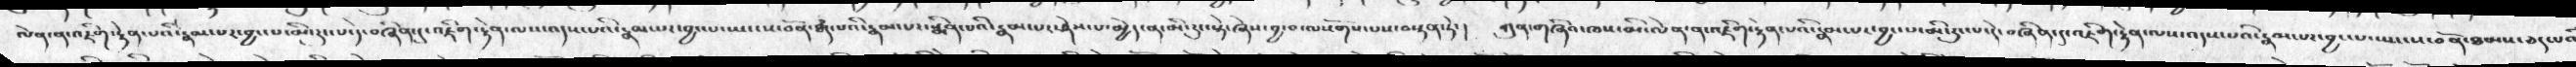ལེན་ན་འཇིག་རྟེན་པའི་རྣམ་པར་བྱང་པ་མི་རུང་པ་དེ་བཞིན་དུ་འཇིག་རྟེན་ལས་འདས་པའི་རྣམ་པར་བྱང་པ་ཡང་ས་བོན་ཐཾད་པའི་རྣམ་པར་སྨིན་པའི་རྣམ་པར་ཤེས་པ་མྱེད་ན་མི་རུང་སྟེ་ཞེས་བྱ་བ་ལསོགས་པས་བསྟན་ཏེ་།    ཀུན་གཞིའ་ཁས་མི་ལེན་ན་འཇིག་རྟེན་པའི་རྣམ་པར་བྱང་པ་མི་རུང་དེ་བཞིན་དུ་འཇིག་རྟེན་ལས་འདས་པའི་རྣམ་པར་བྱང་པ་ཡང་ས་བོན་ཐམས་ཅད་པའི
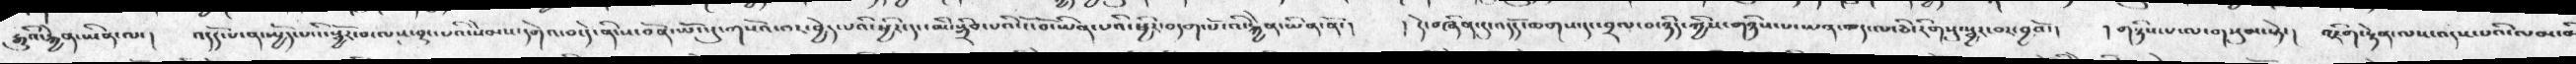རྒྱུའི་རྐྱེན་ཡིན་ལ་།   འདོད་པ་ན་ཡྱོད་པ་འི་སྦྱོར་བ་ལས་བྱུང་པའི་སེམས་དགེའ་བ་དེ་ནི་ས་བོན་ཡོངསུ་གསོའ་བར་བྱེད་པའི་ཕྱིར་དང་མི་སྒྲིབ་པའི་ངོ་བོ་ཡིན་པའི་ཕྱིར་བདག་པོ་འི་རྐྱེན་ཡིན་ནོ་།   ། དེ་བཞིན་དུ་འདོད་ཆགས་དང་བྲལ་བ་ཉིད་ཀྱིས་གཉིས་པ་ཡན་ཆད་ལ་ཅི་རིགསུ་སྦྱར་བར་བྱའོ་།   །  གཉིས་པ་ལ་གསུམ་སྟེ་།  འཇིག་རྟེན་ལས་འདས་པའི་ལམ་
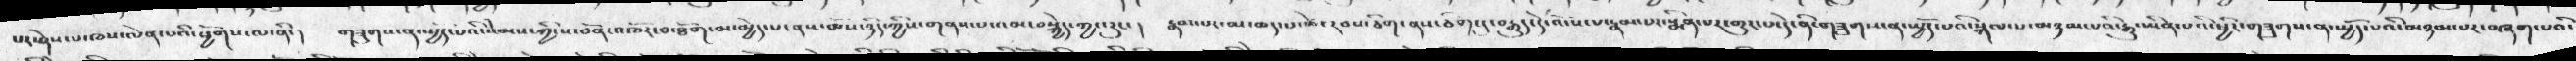པར་ཤེས་པ་ཁས་ལེན་པའི་ཕྱོགས་ལ་ནི་།   གཟུགས་ན་སྤྱོད་པའི་སེམས་གྱི་ས་བོན་འཁོར་བ་ཐོག་མ་མྱེད་པ་ནས་ཆོས་ཉིད་ཀྱིས་གནས་པས་མ་བསྐྱེད་གྱང་རུང་།  རྣམ་པར་མ་ཆད་པ་ཚེ་རབས་ཅིག་ནས་ཅིག་དུ་བརྒྱུད་དེ་འོངས་པ་རྣམ་པར་སྨིན་པར་གྱུར་པ་དེ་ནི་གཟུགས་ན་ཡྱོད་པའི་སྐལ་པ་མཉམ་པའི་རྒྱུ་ཡིན་པའི་ཕྱིར་གཟུགས་ན་ཡྱོད་པའི་མཉམ་པར་བཞག་པའི་
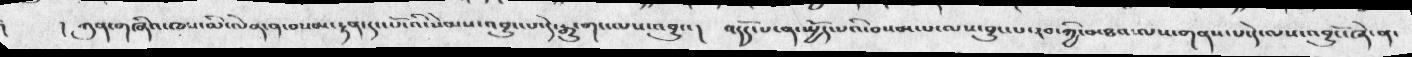།     ། ཀུན་གཞིའ་ཁས་མི་ལེན་ན་བསམ་་རྟན་དང་པོ་འི་སེམས་འབྱུང་པ་དེ་རྒྱུ་གང་ལས་འབྱུང་།  འདོད་པ་ན་ཡྱོད་པའི་བསམ་པ་ལས་བྱུང་པ་རབ་ཀྱི་མཐའ་ལས་གནས་པ་དེ་ལས་འབྱུངོ་ཞེ་ན་
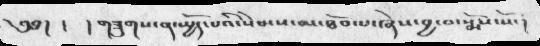༄༅།     །    ། གཟུགས་ན་ཡྱོད་པའི་སེམས་མ་ཐོབ་པ་ཞེས་བྱ་བ་སྨོས་སོ་།
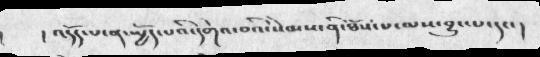།     འདོད་པ་ན་ཡྱོད་པའི་དགེའ་བའི་སེམས་ནི་ཐོས་པ་ལས་བྱུང་པ་དང་ །
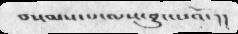བསམས་པ་ལས་བྱུང་པའོ་ །།
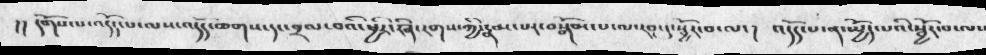།།  དགོས་པ་འདོད་པ་ལས་འདོད་ཆགས་དང་བྲལ་བའི་ཕྱིར་ཞི་རགས་ཀྱི་རྣམ་པར་བསྒོམ་པ་ལ་རབ་དུ་སྦྱོར་བ་ལ་།   འདོད་པ་ན་ཡྱོད་པའི་སྦྱོར་བ་ལས
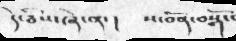དེ་ཅིས་ཞེ་ན་ །   ས་བོན་བསྒོ་བ
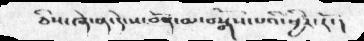ཅིས་ཞེ་ན་དེ་ས་བོན་མ་བསྒོས་པའི་ཕྱིར་རོ་།
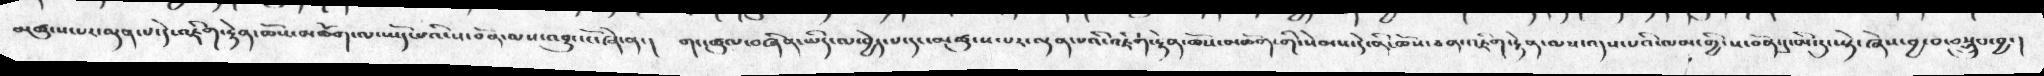མཚུངས་པར་ལྡན་པ་དེ་འཇིག་རྟེན་ཆོས་མཆོག་ལ་ཡོད་པའི་ས་བོན་ལས་འབྱུང་ངོ་ཞེ་ན་།   གང་ཚུལ་བཞིན་ཡིད་ལ་བྱེད་པ་དང་མཚུངས་པར་ལྡན་པའི་འཇིག་རྟེན་ཆོས་མཆོག་གི་སེམས་དེ་ནི་ཆོས་ཅན་འཇིག་རྟེན་ལས་འདས་པའི་ལམ་གྱི་ས་བོན་དུ་མི་རུང་སྟེ་ཞེས་བྱ་བ་བསྡྲུབ་བྱ་།
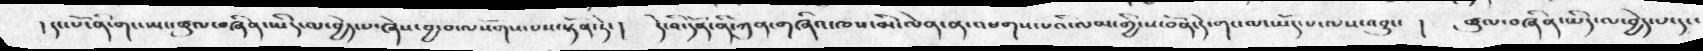། དང་པོ་ནི་གང་ཡང་ཚུལ་བཞིན་ཡིད་ལ་བྱེད་པ་ཞེས་བྱ་བ་ལསོགས་པས་སྟོན་ཏེ་།   དེ་འི་དོན་ནི་ཀུན་གཞིའ་ཁས་མི་ལེན་ན་འཕགས་པའི་ལམ་གྱི་ས་བོན་དེ་གང་ལ་ཡོད་པ་ལས་འབྱུང་ །  ཚུལ་བཞིན་ཡིད་པ་བྱེད་པ་དང་
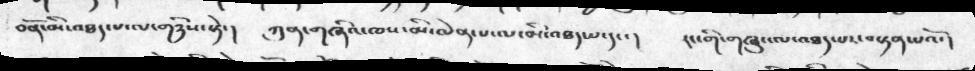བོན་མི་འཐད་པ་ལ་གཉིས་སྟེ་།  ཀུན་གཞིའ་ཁས་མི་ལེན་པ་ལ་མི་འཐད་པ་དང་།   རང་གི་གཞུང་ལ་འཐད་པར་བསྟན་པའོ་།
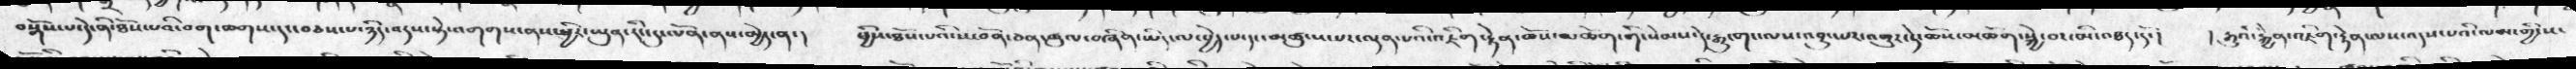བསྒོམ་པ་དེ་ནི་ཐོས་པའི་བག་ཆགས་དང་བཅས་པ་ཉིད་འདས་སྟེ་འགགས་ནས་ཕྱིར་ཡུན་རིང་དུ་ལོན་ནས་མྱེད་ན་།   ཕྱིར་ཐོས་པའི་ས་བོན་ཅན་ཚུལ་བཞིན་ཡིད་ལ་བྱེད་པ་དང་མཚུངས་པར་ལྡན་པའི་འཇིག་རྟེན་ཆོས་མཆོག་གི་སེམས་དེ་རྒྱུ་གང་ལས་འབྱུང་པར་འགྱུར་ཏེ་ཆོས་མཆོག་སྐྱེ་བར་མི་འཐད་དེ་།  ། རྒྱུའི་རྐྱེན་འཇིག་རྟེན་ལས་འདས་པའི་ལམ་གྱི་ས་
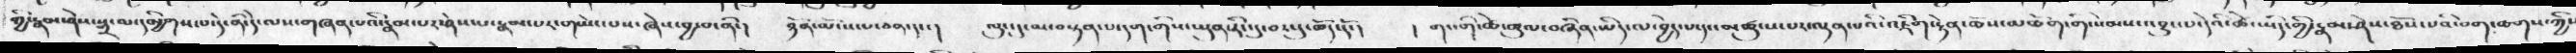གྱི་རྣམ་ཤེས་སྒྲ་མ་དམྱིགས་པ་དེ་ནི་དེ་ལས་གཞན་པའི་རྣམ་པར་ཤེས་པ་རྣམ་པར་གཡེང་པས་ཞེས་བྱ་བ་ནི་།  ཉོན་མོངས་པ་ཅན་དང་།   ལུང་དུ་མ་བསྟན་པ་དག་གིས་ཡུན་རིང་དུ་བར་དུ་ཆོད་དོ་།    ། གང་གི་ཚེ་ཚུལ་བཞིན་ཡིད་ལ་བྱེད་པ་དང་མཚུངས་པར་ལྡན་པའི་འཇིག་རྟེན་ཆོས་མཆོག་གི་སེམས་འབྱུང་པ་དེའི་ཚེ་ཡིད་གྱི་རྣམ་ཤེས་ཐོས་པའི་བག་ཆགས་ཀྱི་
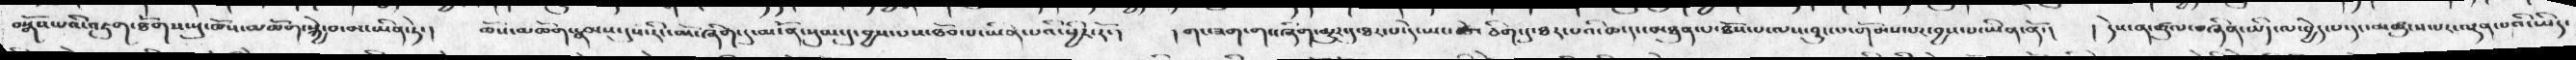བསྒོས་པའི་འཇུག་ཐོགས་སུ་ཆོས་མཆོག་སྐྱེ་བ་མ་ཡིན་ཏེ་།   ཆོས་མཆོག་སྣམས་དུས་རིང་མོ་ཞིག་དུ་མངོན་སུམ་དུ་བྱས་པས་ཐོབ་པ་ཡིན་པའི་ཕྱིར་རོ་།    ། གང་ཟག་གང་ཞིག་མྱུར་དུ་ཐར་པ་དེ་ཡང་ཆོས་ཅིག་དུ་ཐར་པའི་ཆ་དང་མཐུན་པ་ཐོས་པ་ལས་བྱུང་པ་གོམས་པར་བྱས་པ་ཡིན་ནོ་།  ། དེས་ན་ཚུལ་བཞིན་ཡིད་ལ་བྱེད་པ་དང་མཚུངས་པར་ལྡན་པའི་ཡིད་
